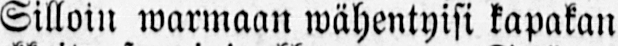Silloin warmaan wähentyisi kapakan
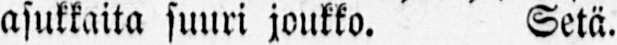asukkaita suuri joukko. Setä.
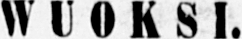Wuoksi.
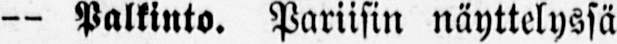— Palkinto. Pariisin näyttelyssä
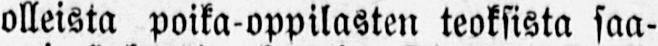olleista poika oppilasten teoksista saa-
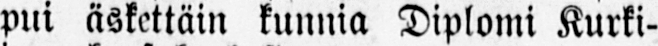pui äskettäin kunnia Diplomi Kurki-
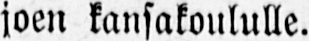joen kansakoululle.
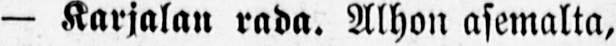— Karjalan rada. Alhon asemalta,
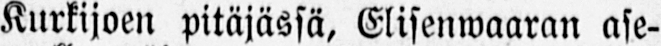Kurkijoen pitäjässä, Elisenwaaran ase-
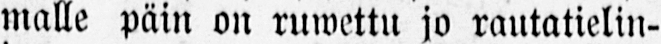malle päin on ruwettu jo rautatielin-
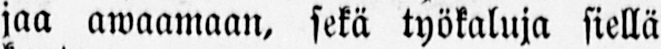jaa awaamaan, sekä työkaluja siellä
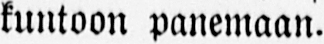kuntoon panemaan.
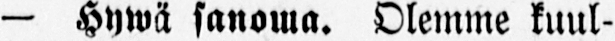— Hywä sanowa. Olemme kuul-
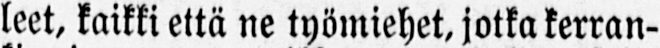leet, kaikki että ne työmiehet, jotka kerran-
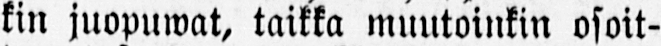kin juopuwat, taikka muutoinkin osoit-
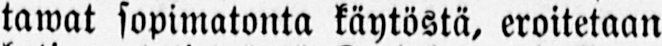tawat sopimatonta käytöstä, eroitetaan
